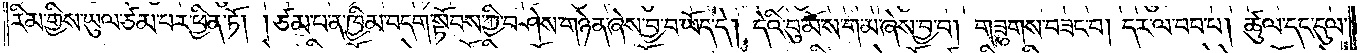རིམ་གྱིས་ཡུལ་ཙམ་པར་ཕྱིན་ཏོ། །ཙམ་པ་ན་ཁྱིམ་བདག་སྟོབས་ཀྱི་བཤེས་གཉེན་ཞེས་བྱ་བ་ཡོད་དེ། དེའི་བུ་མོ་ས་ག་མ་ཞེས་བྱ་བ། གཟུགས་བཟང་བ། དར་ལ་བབ་པ། ཚུལ་དང་དུལ་
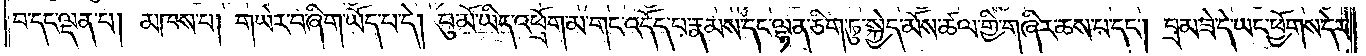བ་དང་ལྡན་པ། མཁས་པ། གཡེར་བ་ཞིག་ཡོད་པ་དེ། བུ་མོ་ཡིད་འཕྲོག་མ་གང་འདོད་པ་རྣམས་དང་ལྷན་ཅིག་ཏུ་སྐྱེད་མོས་ཚལ་གྱི་གཞིར་ཆས་པ་དང༌། བྲམ་ཟེ་དེ་ཡང་ཕྱོགས་དེར་
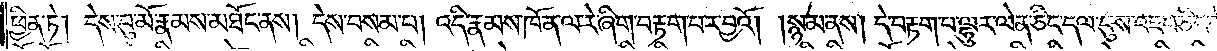ཕྱིན་ཏེ། དེས་བུ་མོ་རྣམས་མཐོང་ནས། དེས་བསམ་པ། འདི་རྣམས་ཁོ་ན་ལ་རེ་ཞིག་བརྟག་པར་བྱའོ། །སྙམ་ནས། དེ་བརྟག་པ་ལྷུར་ལེན་ཅིང་དལ་བུས་འཇབ་ཅིང་དེ་རྣམས་ཀྱི་ཕྱི་བཞིན་དུ་
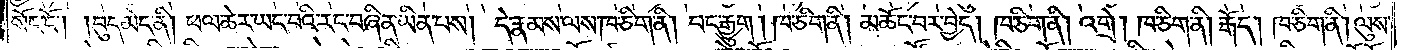སོང་ངོ༌། །བུད་མེད་ནི། ཕལ་ཆེར་ཡང་བའི་རང་བཞིན་ཡིན་པས། དེ་རྣམས་ལས་ཁ་ཅིག་ནི། བང་རྒྱུག། ཁ་ཅིག་ནི། མཆོང་བར་བྱེད། ཁ་ཅིག་ནི། འགྲེ། ཁ་ཅིག་ནི། རྒོད། ཁ་ཅིག་ནི། ལུས་
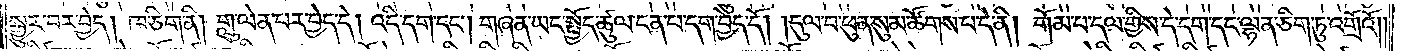སྒྱུར་བར་བྱེད། ཁ་ཅིག་ནི། གླུ་ལེན་པར་བྱེད་དེ། འདི་དག་དང༌། གཞན་ཡང་སྤྱོད་ཚུལ་ངན་པ་དག་བྱེད་དོ། །དུལ་བ་ཕུན་སུམ་ཚོགས་པ་དེ་ནི། གོམ་པ་དལ་གྱིས་དེ་དག་དང་ལྷན་ཅིག་ཏུ་འགྲོའོ༎
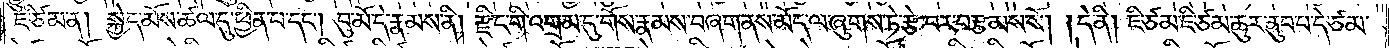ཇི་ཙམ་ན། སྐྱེད་མོས་ཚལ་དུ་ཕྱིན་པ་དང༌། བུ་མོ་དེ་རྣམས་ནི། རྫིང་གི་འགྲམ་དུ་གོས་རྣམས་བཞག་ནས་མོད་ལ་ཞུགས་ཏེ་རྩེ་བར་བརྩམས་སོ། །དེ་ནི། ཇི་ཙམ་ཇི་ཙམ་ཆུར་ནུབ་པ་དེ་ཙམ་
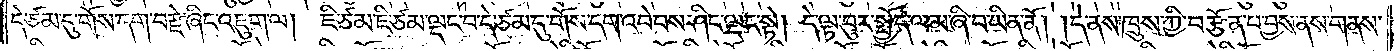དེ་ཙམ་དུ་གོས་དག་བརྫེ་ཞིང་འཇུག་ལ། ཇི་ཙམ་ཇི་ཙམ་ལྡང་བ་དེ་ཙམ་དུ་གོས་དག་འབེབས་ཤིང་ལྡང་སྟེ། དེ་ལྟ་བུར་སྤྱོད་ལམ་ཞི་བ་ཡིན་ནོ། །དེ་ནས་ཁྲུས་ཀྱི་བརྩོན་པ་བྱས་ནས་གནས་
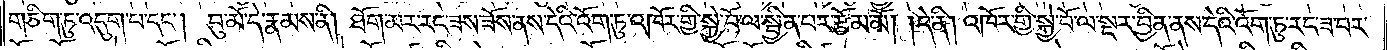གཅིག་ཏུ་འདུག་པ་དང༌། བུ་མོ་དེ་རྣམས་ནི། ཐོག་མར་རང་ཟས་ཟོས་ནས་དེའི་འོག་ཏུ་འཁོར་གྱི་སྐྱེ་བོ་ལ་སྦྱིན་པར་རྩོམ་མོ། །དེ་ནི། འཁོར་གྱི་སྐྱེ་བོ་ལ་སྔར་བྱིན་ནས་དེའི་འོག་ཏུ་རང་ཟ་བར་
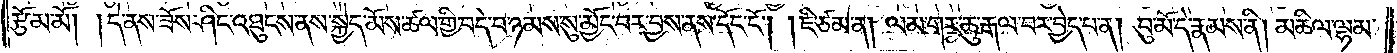རྩོམ་མོ། །དེ་ནས་ཟོས་ཤིང་འཐུངས་ནས་སྐྱེད་མོས་ཚལ་གྱི་བདེ་བ་ཉམས་སུ་མྱོང་བར་བྱས་ནས་དོང་ངོ༌། །ཇི་ཙམ་ན། ལམ་གར་ཆུ་རྒལ་བར་བྱེད་པ་ན། བུ་མོ་དེ་རྣམས་ནི། མཆིལ་ལྷམ་
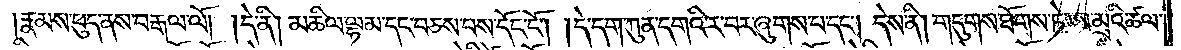།རྣམས་ཕུད་ནས་བརྒལ་ལོ། །དེ་ནི། མཆིལ་ལྷམ་དང་བཅས་པས་དོང་ངོ༌། །དེ་དག་ཀུན་དགའི་ར་པར་ཞུགས་པ་དང༌། དེས་ནི། གདུགས་ཐོགས་ཏེ་ཨ་མྲའི་ཚལ་
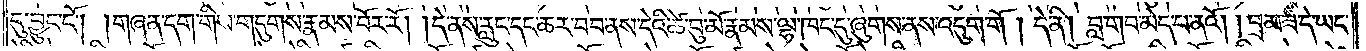དུ་བྱུང་ངོ༌། །གཞན་དག་གིས་གདུགས་རྣམས་བོར་རོ། །དེ་ནས་རླུང་དང་ཆར་བབ་ནས་དེའི་ཚེ་བུ་མོ་རྣམས་ལྷ་ཁང་དུ་ཞུགས་ནས་འདུག་གོ། །དེ་ནི། བླ་གབ་མེད་པ་ནའོ། །བྲམ་ཟེ་དེ་ཡང་
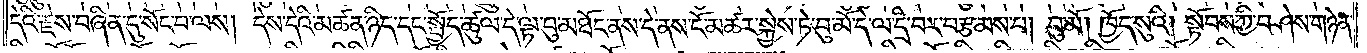དེའི་རྗེས་བཞིན་དུ་སོང་བ་ལས། དེས་དེའི་མཚན་ཉིད་དང་སྤྱོད་ཚུལ་དེ་ལྟ་བུ་མཐོང་ནས་དེ་ནས་ངོ་མཚར་སྐྱེས་ཏེ་བུ་མོ་དེ་ལ་དྲི་བར་བརྩམས་པ། བུ་མོ། ཁྱོད་སུའི། སྟོབས་ཀྱི་བཤེས་གཉེན་
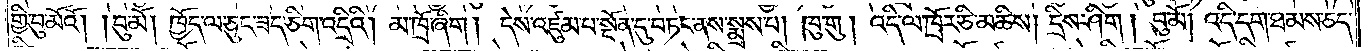གྱི་བུ་མོའོ། །བུ་མོ། ཁྱོད་ལ་ཅུང་ཟད་ཅིག་འདྲིའི། མ་ཁྲོ་ཞིག །དེས་འཛུམ་པ་སྔོན་དུ་བཏང་ནས་སྨྲས་པ། ཁུ་གུ། འདི་ལ་ཁྲོར་ཅི་མཆིས། དྲིས་ཤིག། བུ་མོ། འདི་དག་ཐམས་ཅད་
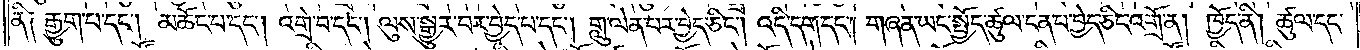ནི༑ རྒྱུག་པ་དང༌། མཆོང་པ་དང༌། འགྲེ་བ་དང༌། ལུས་སྒྱུར་བར་བྱེད་པ་དང༌། གླུ་ལེན་པར་བྱེད་ཅིང༌། འདི་དག་དང༌། གཞན་ཡང་སྤྱོད་ཚུལ་ངན་པ་བྱེད་ཅིང་འགྲོ་ན། ཁྱོད་ནི། ཚུལ་དང་
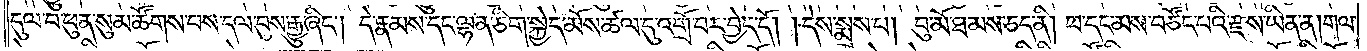དུལ་བ་ཕུན་སུམ་ཚོགས་པས་དལ་བུས་རྒྱུ་ཞིང༌། དེ་རྣམས་དང་ལྷན་ཅིག་སྐྱེད་མོས་ཚལ་དུ་འགྲོ་བར་བྱེད་དོ། །དེས་སྨྲས་པ། བུ་མོ་ཐམས་ཅད་ནི། ཕ་དང་མས་བཙོང་པའི་རྫས་ཡིན་ན། གལ་
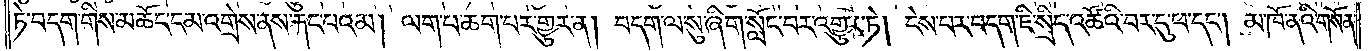ཏེ་བདག་གིས་མཆོང་ངམ་འགྲེས་ནས་རྐང་པའམ། ལག་པ་ཆག་པར་གྱུར་ན། བདག་ལ་སུ་ཞིག་སློང་བར་འགྱུར་ཏེ། ངེས་པར་བདག་ཇི་སྲིད་འཚོའི་བར་དུ་ཕ་དང༌། མ་ཁོ་ནའི་གསོན་
